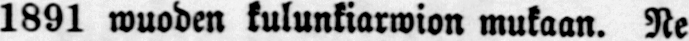1891 wuoden kulunkiarwion mukaan. Ne
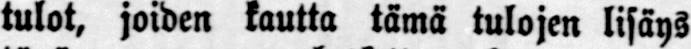tulot, joiden kautta tämä tulojen lisäys
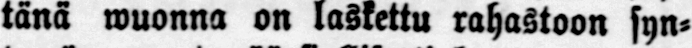tänä wuonna on laskettu rahastoon syn-
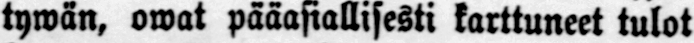tywän, owat pääasiallisesti karttuneet tulot
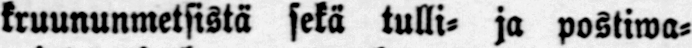kruununmetsistä sekä tulli- ja postiwa-
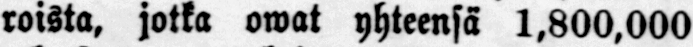roista, jotka owat yhteensä 1,800.000
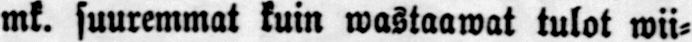mk. suuremmat kuin wastaawat tulot wii-
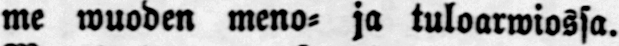me wuoden meno- ja tuloarwiossa. —
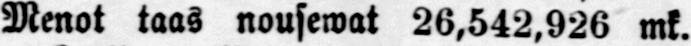Menot taas nousewat 26,542,926 mk.
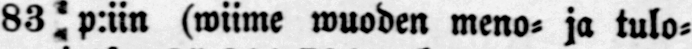83 p:iin (wiime wuoden meno- ja tulo-
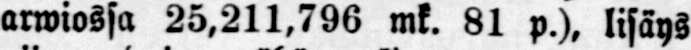arwiossa 25,211,796 mk. 81 p.), lisäys
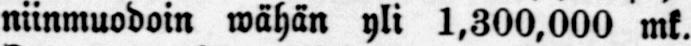niinmuodoin wähän yli 1,300,000 mk.
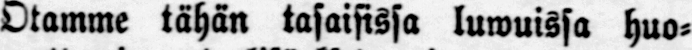Otamme tähän tasaisissa luwuissa huo-
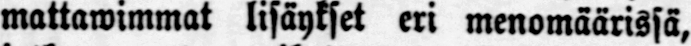mattawimmat lisäykset eri menomäärissä,
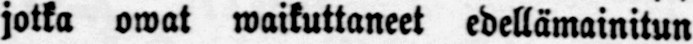jotka owat waikuttaneet edellämainitun
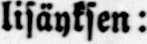lisäyksen:
